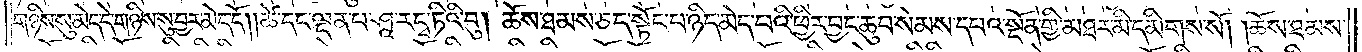གཉིས་སུ་མེད་དེ་གཉིས་སུ་བྱར་མེད་དོ། །ཚེ་དང་ལྡན་པ་ཤཱ་རདྭ་ཏིའི་བུ། ཆོས་ཐམས་ཅད་སྟོང་པ་ཉིད་མེད་པའི་ཕྱིར་བྱང་ཆུབ་སེམས་དཔའ་སྔོན་གྱི་མཐར་མི་དམིགས་སོ། །ཆོས་ཐམས་
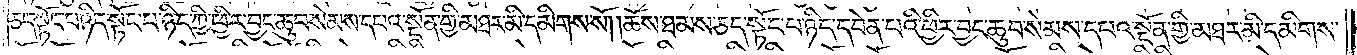ཅད་སྟོང་པ་ཉིད་སྟོང་པ་ཉིད་ཀྱི་ཕྱིར་བྱང་ཆུབ་སེམས་དཔའ་སྔོན་གྱི་མཐར་མི་དམིགས་སོ། །ཆོས་ཐམས་ཅད་སྟོང་པ་ཉིད་དབེན་པའི་ཕྱིར་བྱང་ཆུབ་སེམས་དཔའ་སྔོན་གྱི་མཐར་མི་དམིགས་
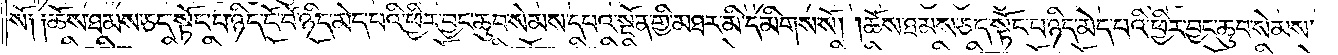སོ༑ ༑ཆོས་ཐམས་ཅད་སྟོང་པ་ཉིད་ངོ་བོ་ཉིད་མེད་པའི་ཕྱིར་བྱང་ཆུབ་སེམས་དཔའ་སྔོན་གྱི་མཐར་མི་དམིགས་སོ། །ཆོས་ཐམས་ཅད་སྟོང་པ་ཉིད་མེད་པའི་ཕྱིར་བྱང་ཆུབ་སེམས་
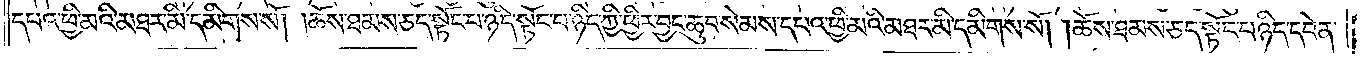དཔའ་ཕྱི་མའི་མཐར་མ་དམིགས་སོ། །ཆོས་ཐམས་ཅད་སྟོང་པ་ཉིད་སྟོང་པ་ཉིད་ཀྱི་ཕྱིར་བྱང་ཆུབ་སེམས་དཔའ་ཕྱི་མའི་མཐར་མི་དམིགས་སོ། །ཆོས་ཐམས་ཅད་སྟོང་པ་ཉིད་དབེན་
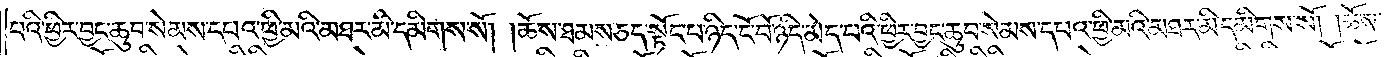པའི་ཕྱིར་བྱང་ཆུབ་སེམས་དཔའ་ཕྱི་མའི་མཐར་མི་དམིགས་སོ། །ཆོས་ཐམས་ཅད་སྟོང་པ་ཉིད་ངོ་བོ་ཉིད་མེད་པའི་ཕྱིར་བྱང་ཆུབ་སེམས་དཔའ་ཕྱི་མའི་མཐར་མི་དམིགས་སོ། །ཆོས་
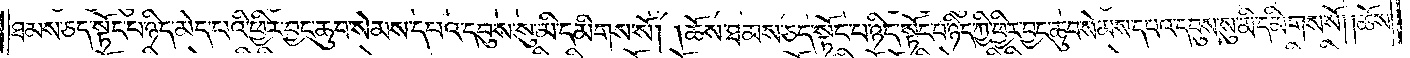ཐམས་ཅད་སྟོང་པ་ཉིད་མེད་པའི་ཕྱིར་བྱང་ཆུབ་སེམས་དཔའ་དབུས་སུ་མི་དམིགས་སོ། །ཆོས་ཐམས་ཅད་སྟོང་པ་ཉིད་སྟོང་པ་ཉིད་ཀྱི་ཕྱིར་བྱང་ཆུབ་སེམས་དཔའ་དབུས་སུ་མི་དམིགས་སོ། །ཆོས་
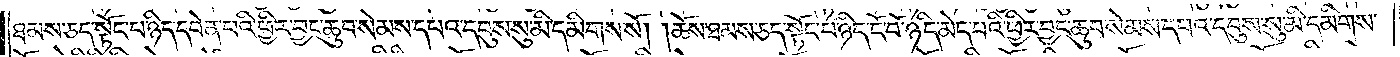ཐམས་ཅད་སྟོང་པ་ཉིད་དབེན་པའི་ཕྱིར་བྱང་ཆུབ་སེམས་དཔའ་དབུས་སུ་མི་དམིགས་སོ། །ཆོས་ཐམས་ཅད་སྟོང་པ་ཉིད་ངོ་བོ་ཉིད་མེད་པའི་ཕྱིར་བྱང་ཆུབ་སེམས་དཔའ་དབུས་སུ་མི་དམིགས་
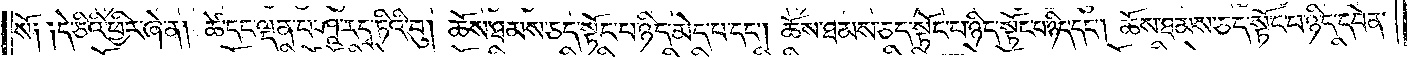སོ༑ ༑དེ་ཅིའི་ཕྱིར་ཞེ་ན། ཚེ་དང་ལྡན་པ་ཤཱ་རདྭ་ཏིའི་བུ། ཆོས་ཐམས་ཅད་སྟོང་པ་ཉིད་མེད་པ་དང༌། ཆོས་ཐམས་ཅད་སྟོང་པ་ཉིད་སྟོང་པ་ཉིད་དང༌། ཆོས་ཐམས་ཅད་སྟོང་པ་ཉིད་དབེན་
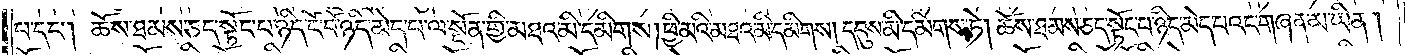པ་དང༌། ཆོས་ཐམས་ཅད་སྟོང་པ་ཉིད་ངོ་བོ་ཉིད་མེད་པ་ལ་སྔོན་གྱི་མཐའ་མི་དམིགས། ཕྱི་མའི་མཐའ་མི་དམིགས། དབུས་མི་དམིགས་ཏེ། ཆོས་ཐམས་ཅད་སྟོང་པ་ཉིད་མེད་པའང་གཞན་མ་ཡིན།
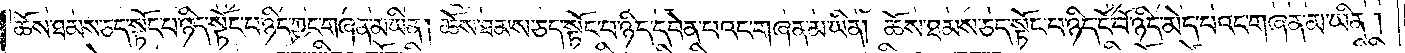ཆོས་ཐམས་ཅད་སྟོང་པ་ཉིད་སྟོང་པ་ཉིད་ཀྱང་གཞན་མ་ཡིན། ཆོས་ཐམས་ཅད་སྟོང་པ་ཉིད་དབེན་པའང་གཞན་མ་ཡིན། ཆོས་ཐམས་ཅད་སྟོང་པ་ཉིད་ངོ་བོ་ཉིད་མེད་པའང་གཞན་མ་ཡིན།
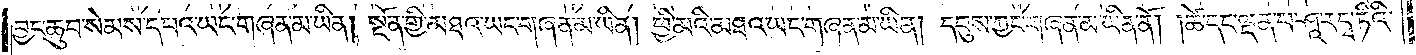བྱང་ཆུབ་སེམས་དཔའ་ཡང་གཞན་མ་ཡིན། སྔོན་གྱི་མཐའ་ཡང་གཞན་མ་ཡིན། ཕྱི་མའི་མཐའ་ཡང་གཞན་མ་ཡིན། དབུས་ཀྱང་གཞན་མ་ཡིན་ནོ། །ཚེ་དང་ལྡན་པ་ཤཱ་ར་དྭ་ཏིའི་
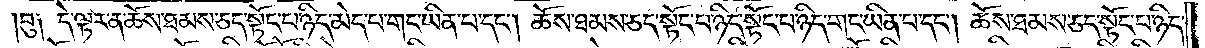བུ༑ དེ་ལྟར་ན་ཆོས་ཐམས་ཅད་སྟོང་པ་ཉིད་མེད་པ་གང་ཡིན་པ་དང༌། ཆོས་ཐམས་ཅད་སྟོང་པ་ཉིད་སྟོང་པ་ཉིད་གང་ཡིན་པ་དང༌། ཆོས་ཐམས་ཅད་སྟོང་པ་ཉིད་
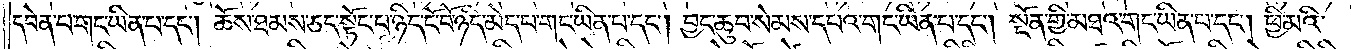དབེན་པ་གང་ཡིན་པ་དང༌། ཆོས་ཐམས་ཅད་སྟོང་པ་ཉིད་ངོ་བོ་ཉིད་མེད་པ་གང་ཡིན་པ་དང༌། བྱང་ཆུབ་སེམས་དཔའ་གང་ཡིན་པ་དང༌། སྔོན་གྱི་མཐའ་གང་ཡིན་པ་དང༌། ཕྱི་མའི་
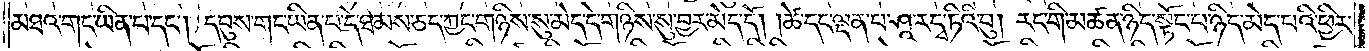མཐའ་གང་ཡིན་པ་དང༌། དབུས་གང་ཡིན་པ་དེ་ཐམས་ཅད་ཀྱང་གཉིས་སུ་མེད་དེ་གཉིས་སུ་བྱར་མེད་དོ། །ཚེ་དང་ལྡན་པ་ཤཱ་རདྭ་ཏིའི་བུ། རང་གི་མཚན་ཉིད་སྟོང་པ་ཉིད་མེད་པའི་ཕྱིར་
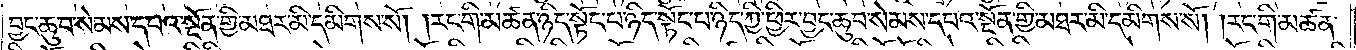བྱང་ཆུབ་སེམས་དཔའ་སྔོན་གྱི་མཐར་མི་དམིགས་སོ། །རང་གི་མཚན་ཉིད་སྟོང་པ་ཉིད་སྟོང་པ་ཉིད་ཀྱི་ཕྱིར་བྱང་ཆུབ་སེམས་དཔའ་སྔོན་གྱི་མཐར་མི་དམིགས་སོ། །རང་གི་མཚན་
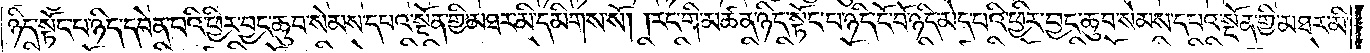ཉིད་སྟོང་པ་ཉིད་དབེན་པའི་ཕྱིར་བྱང་ཆུབ་སེམས་དཔའ་སྔོན་གྱི་མཐར་མི་དམིགས་སོ། །རང་གི་མཚན་ཉིད་སྟོང་པ་ཉིད་ངོ་བོ་ཉིད་མེད་པའི་ཕྱིར་བྱང་ཆུབ་སེམས་དཔའ་སྔོན་གྱི་མཐར་མི་
